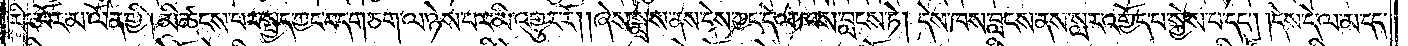རིང་པོར་མ་ལོན་གྱི། མི་ཚངས་པར་སྤྱད་ཀྱང་བདག་ཅག་ལ་ཉེས་པར་མི་འགྱུར་རོ། །ཞེས་སྨྲས་ནས་དེས་ཀྱང་དེ་ལ་ཁས་བླངས་ཏེ། དེས་ཁས་བླངས་ནས་སླར་འགྱོད་པ་སྐྱེས་པ་དང༌། དེས་དེ་ལ་མ་དད་
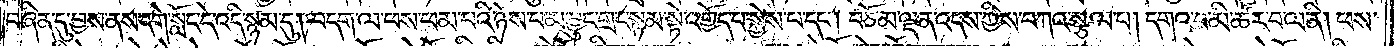བཞིན་དུ་བྱས་ནས་དགེ་སློང་དེ་འདི་སྙམ་དུ། བདག་ལ་ཕས་ཕམ་པའི་ཉེས་པ་མ་བྱུང་གྲང་སྙམ་སྟེ་འགྱོད་པ་སྐྱེས་པ་དང༌། བཅོམ་ལྡན་འདས་ཀྱིས་བཀའ་སྩལ་པ། དགའ་བ་མི་ཚོར་བ་ལ་ནི། ཕས་
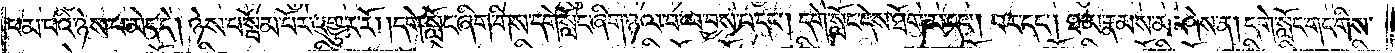ཕམ་པའི་ཉེས་པ་མེད་དེ། ཉེས་པ་སྦོམ་པོར་འགྱུར་རོ། །དགེ་སློང་ཞིག་གིས་དགེ་སློང་ཞིག་ཉལ་བ་ལ་བྱས་པ་དང༌། དགེ་སློང་དེས་ཐོག་མ་དང༌། བར་དང༌། ཐ་མ་རྣམས་མ་ཤེས་ན། དགེ་སློང་གང་གིས་
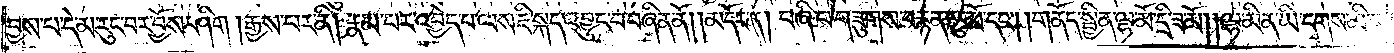བྱས་པ་དེ་མ་རུང་བར་བྱོས་ཤིག །རྒྱས་པར་ནི། རྣམ་པར་འབྱེད་པ་ལས་ཇི་སྐད་འབྱུང་བ་བཞིན་ནོ། །མདོར་ན། བཞི་པ་གཟུགས་བརྙན་ཀླུ་མོ་དང༌། གནོད་སྦྱིན་ལྷ་མོ་དྲི་ཟ་མོ། །ལྷ་མིན་ཡི་དྭགས་མི་ཟ་
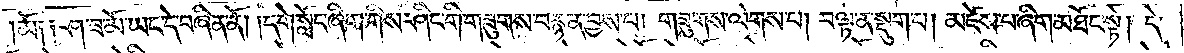མོ༑ ༑ཤ་ཟ་མོ་ཡང་དེ་བཞིན་ནོ། །དགེ་སློང་ཞིག་གིས་ཤིང་གི་གཟུགས་བརྙན་བྱས་པ། གཟུགས་ལེགས་པ། བལྟ་ན་སྡུག་པ། མཛེས་པ་ཞིག་མཐོང་སྟེ། དེ་
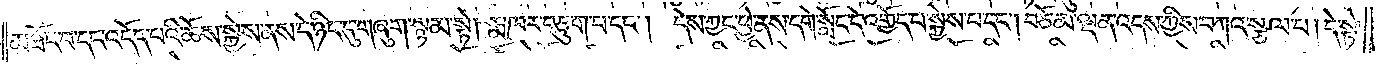མཐོང་བ་དང་འདོད་པའི་ཆོས་སྐྱེས་ནས་དེ་ཉིད་དུ་གཞུག་སྙམ་སྟེ། རྨ་ཁར་བཅུག་པ་དང༌། དེས་ཀྱང་ཕྱེ་ནས་དགེ་སློང་དེ་འགྱོད་པ་སྐྱེས་པ་དང༌། བཅོམ་ལྡན་འདས་ཀྱིས་བཀའ་སྩལ་པ། དེ་སྟེ་
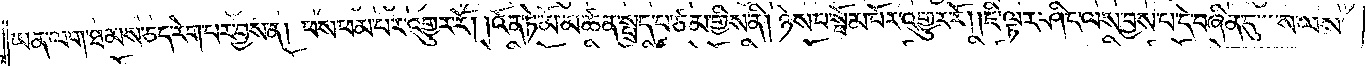ཡན་ལག་ཐམས་ཅད་རེག་པར་བྱས་ན། ཕས་ཕམ་པར་འགྱུར་རོ། །འོན་ཏེ་མོ་མཚན་སྤྲད་པ་ཙམ་གྱིས་ནི། ཉེས་པ་སྦོམ་པོར་འགྱུར་རོ། །ཇི་ལྟར་ཤིང་ལས་བྱས་པ་དེ་བཞིན་དུ་ས་ལས་
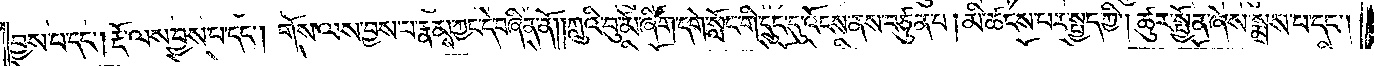བྱས་པ་དང༌། རྡོ་ལས་བྱས་པ་དང༌། གོས་ལས་བྱས་པ་རྣམས་ཀྱང་དེ་བཞིན་ནོ། །ཀླུའི་བུ་མོ་ཞིག་དགེ་སློང་གི་དྲུང་དུ་འོངས་ནས་བཙུན་པ། མི་ཚངས་པར་སྤྱད་ཀྱི། ཚུར་སྤྱོན་ཞེས་སྨྲས་པ་དང༌།
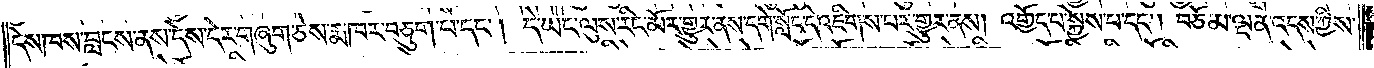དེས་ཁས་བླངས་ནས་དེས་དེར་གཞུག་ཅེས་རྨ་ཁར་བཅུག་པ་དང༌། དེ་ཡང་ལུས་རིང་མོ་གྱུར་ནས་དགེ་སློང་དེ་འཇིགས་པར་གྱུར་ནས། འགྱོད་པ་སྐྱེས་པ་དང༌། བཅོམ་ལྡན་འདས་ཀྱིས་
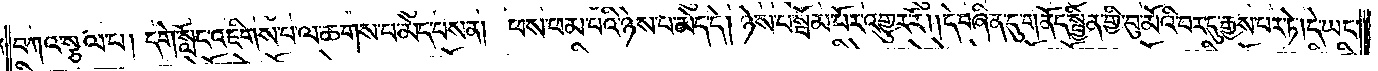བཀའ་སྩལ་པ། དགེ་སློང་འཇིགས་པ་ལ་ཆགས་པ་མེད་པས་ན། ཕས་ཕམ་པའི་ཉེས་པ་མེད་དེ། ཉེས་པ་སྦོམ་པོར་འགྱུར་རོ། །དེ་བཞིན་དུ་གནོད་སྦྱིན་གྱི་བུ་མོའི་བར་དུ་རྒྱས་པར་ཏེ། དེ་ཡང་
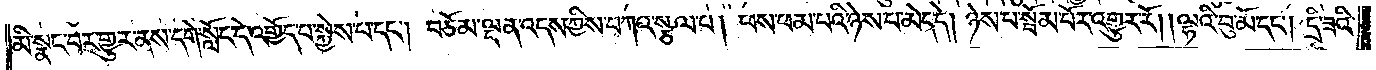མི་སྣང་བར་གྱུར་ནས་དགེ་སློང་དེ་འགྱོད་པ་སྐྱེས་པ་དང༌། བཅོམ་ལྡན་འདས་ཀྱིས་བཀའ་སྩལ་པ། ཕས་ཕམ་པའི་ཉེས་པ་མེད་དེ། ཉེས་པ་སྦོམ་པོར་འགྱུར་རོ། །ལྷའི་བུ་མོ་དང༌། དྲི་ཟའི་
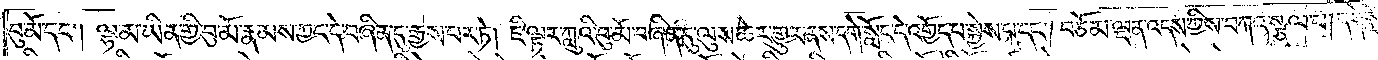བུ་མོ་དང༌། ལྷ་མ་ཡིན་གྱི་བུ་མོ་རྣམས་ཀྱང་དེ་བཞིན་དུ་རྒྱས་པར་ཏེ། ཇི་ལྟར་ཀླུའི་བུ་མོ་བཞིན་དུ་ལུས་ཆེར་གྱུར་ནས་དགེ་སློང་དེ་འགྱོད་པ་སྐྱེས་པ་དང༌། བཅོམ་ལྡན་འདས་ཀྱིས་བཀའ་སྩལ་པ། དགེ་སློང་
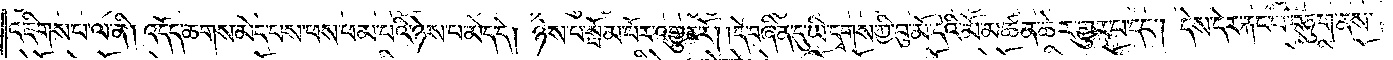འཇིགས་པ་ལ་ནི། འདོད་ཆགས་མེད་པས་ཕས་ཕམ་པའི་ཉེས་པ་མེད་དེ། ཉེས་པ་སྦོམ་པོར་འགྱུར་རོ། །དེ་བཞིན་དུ་ཡི་དྭགས་ཀྱི་བུ་མོ་དེའི་མོ་མཚན་ཆེར་གྱུར་པ་དང༌། དེས་དེར་རྐང་པ་བཅུག་ནས་
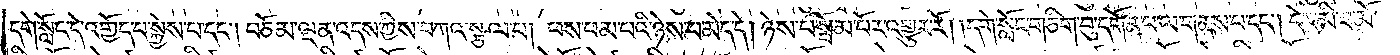དགེ་སློང་དེ་འགྱོད་པ་སྐྱེས་པ་དང༌། བཅོམ་ལྡན་འདས་ཀྱིས་བཀའ་སྩལ་པ། ཕས་ཕམ་པའི་ཉེས་པ་མེད་དེ། ཉེས་པ་སྦོམ་པོར་འགྱུར་རོ། །དགེ་སློང་གཅིག་བུ་དགོན་པ་ལ་གནས་པ་དང༌། དེར་མི་ཟ་མོ་
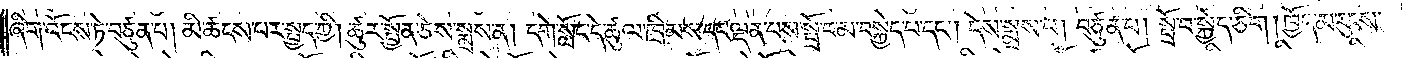ཞིག་འོངས་ཏེ་བཙུན་པ། མི་ཚངས་པར་སྤྱད་ཀྱི། ཚུར་སྤྱོན་ཅེས་སྨྲས་ན། དགེ་སློང་དེ་ཚུལ་ཁྲིམས་དང་ལྡན་པས་སྤྲོ་བ་མ་བསྐྱེད་པ་དང༌། དེས་སྨྲས་པ། བཙུན་པ། སྤྲོ་བ་སྐྱེད་ཅིག །ཁྱོད་མ་རུངས་
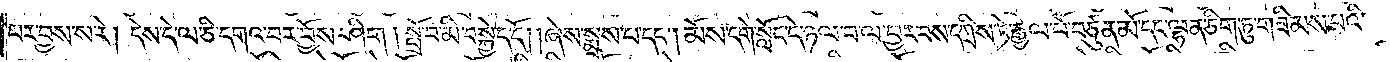པར་བྱས་ས་རེ། དེས་དེ་ལ་ཅི་དགའ་བར་བྱོས་ཤིག །སྤྲོ་བ་མི་བསྐྱེད་དོ། །ཞེས་སྨྲས་པ་དང༌། མོས་དགེ་སློང་དེ་ཉལ་བ་ལ་ཕྱར་བས་དཀྲིས་ཏེ་རྒྱལ་པོ་བཙུན་མོ་དང་ལྷན་ཅིག་ཏུ་གཟིམས་པའི་
